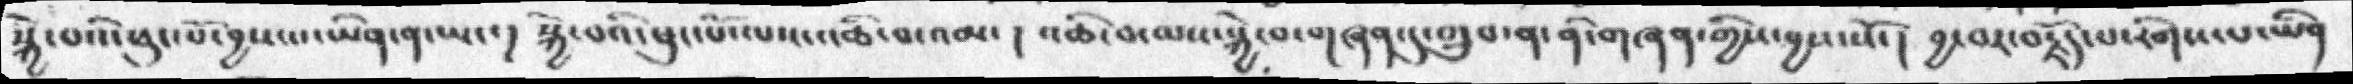སྐྱེ་བའི་ཕུང་པོ་བྱས་པ་ཡིན་ན་ཡང་། སྐྱེ་བའི་ཕུང་པོ་ལས་འཆི་བ་འམ་།  འཆི་བ་ལས་སྐྱེ་བ་གཞན་དུ་གྲུབ་ན་ནི་གཞན་གྱིས་བྱས་སོ་།  བྱ་བར་བརྗོད་པ་རིགས་པ་ཡིན
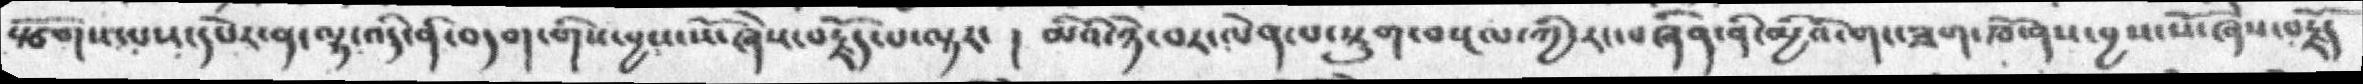སྩོགས་པས་དཔེཏ་ན་ལྷ་འདི་ནི་བདག་གིས་བྱས་སོ་ཞེས་བརྗོད་པ་ལྟར་།  མིའི་ཉེ་བར་ལེན་པ་སྡུག་བསྔལ་ཀྱི་རང་བཞིན་ནི་མྱིའི་གང་ཟག་ཁོ་ནས་བྱས་སོ་ཞེས་བརྗོད
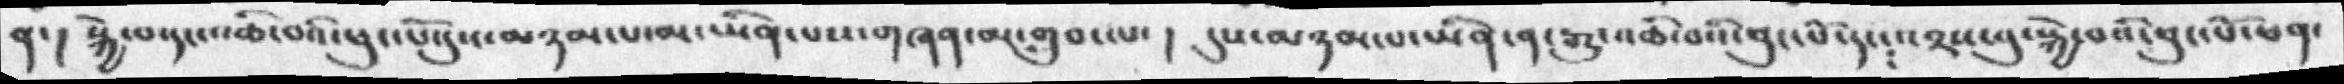ན་། སྐྱེ་བ་དང་འཆི་བའི་ཕུང་པོ་དུས་མཉམ་པ་མ་ཡིན་པས་གཞན་མ་གྲུབ་ལ་།  དུས་མཉམ་པ་ཡིན་ན་རྒྱུ་འཆི་བའི་ཕུང་པོ་དང༴འབྲས་བུ་སྐྱེ་བའི་ཕུང་པོ་ཕན་
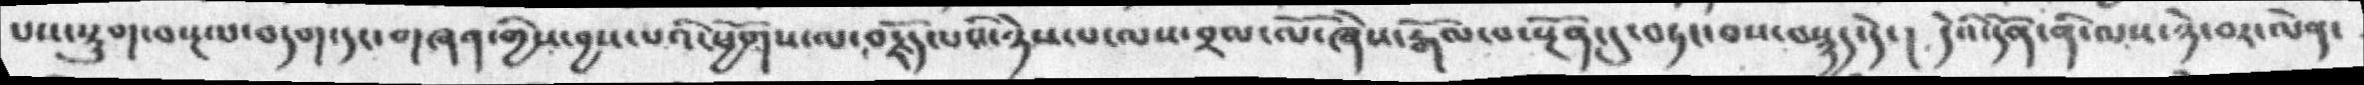པས་སྡུག་བསྔལ་བདག་དངགཞན་གྱིས་བྱས་པའི་ཕྱོགས་ལ་བརྗོད་པའི་ཉེས་པ་ལས་བྲལ་ལོ་ཞེས་རྒོལ་བ་སྔོན་དུ་བཏང་བས་བསྙད་དེ་།  དེའི་དོན་ནི་ལས་ཉེ་བར་ལེན་
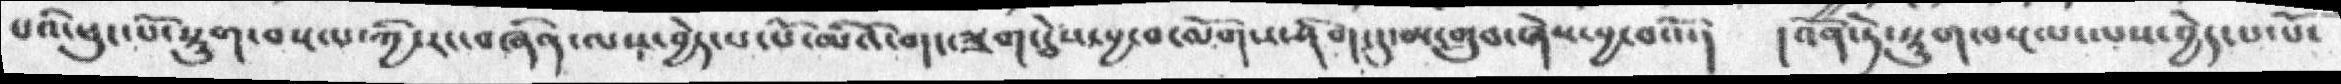པའི་ཕུང་པོ་སྡུག་བསྔལ་ཀྱི་རང་བཞིན་ལས་བྱེད་པ་པོ་མིའི་གང་ཟག་ཅེས་བྱ་བ་ལོགས་ཤིག་དུ་མ་གྲུབ་ཞེས་བྱ་བའོ་།  །འོན་ཏེ་སྡུག་བསྔལ་ལས་བྱེད་པ་པོ་
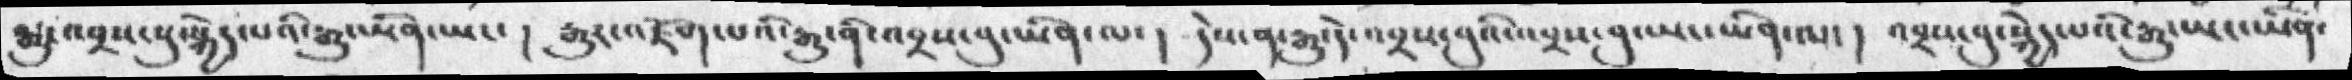རྒྱུ་འབྲས་སུ་སྐྱེད་པའི་རྒྱུ་ཡིན་ཡང་།  རྒྱུར་འཇོག་པའི་རྒྱུ་ནི་འབྲས་བུ་ཡིན་ལ་། དེས་ན་རྒྱུ་དེ་འབྲས་བུའི་འབྲས་བུ་ཡང་ཡིན་ལ་། འབྲས་བུ་སྐྱེད་པའི་རྒྱུ་ཡང་ཡིན་
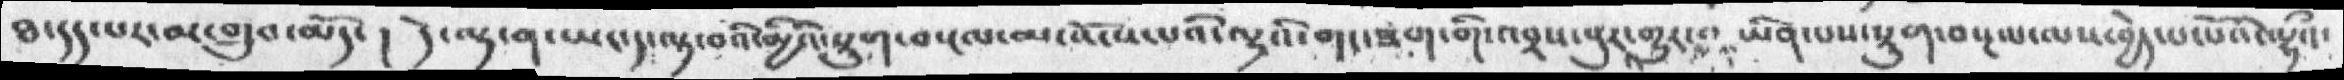ཐ་དད་པར་མ་གྲུབ་མོད་།   དེ་ལྟ་ན་ཡང་ད་ལྟ་བའི་མྱིའི་སྡུག་བསྔལ་མ་འོངས་པའི་ལྷའི་གང་ཟག་གི་འབྲས་བུར་གྱུར་བ  ཡིན་པས་སྡུག་བསྔལ་ལས་བྱེད་པ་པོའི་ལྷའི་
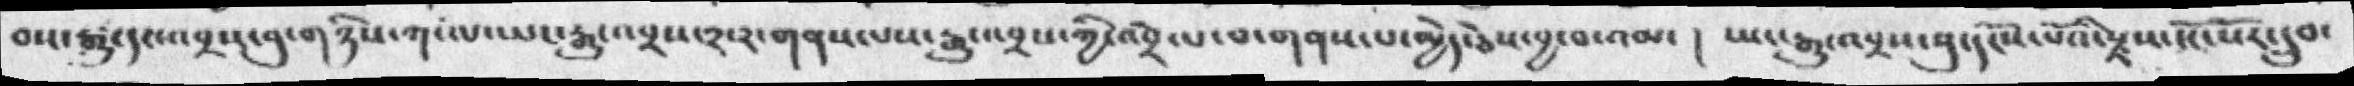བས་རྒྱུ་དང་འབྲས་བུ་གཉིས་ཀ་ལ་ཡང་རྒྱུ་འབྲས་༢་༢་གནས་པས་རྒྱུ་འབྲས་ཀྱི་འབྲེལ་བ་གནས་པ་མྱེད་ཅེས་བྱ་བ་འམ་། ཡང་རྒྱུ་འབྲས་སུ་དངོས་པོའི་རྫས་དང་པོར་དྲུབ་
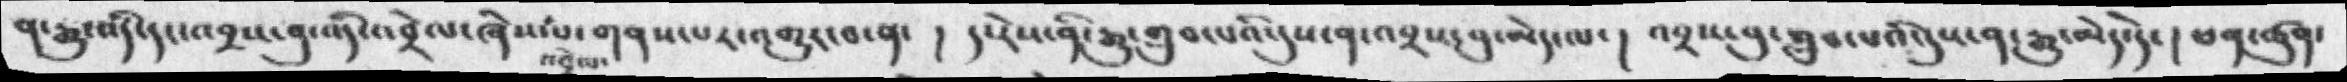༡་རྒྱུ་འདི་དང་འབྲས་བུ་འདི་འབྲེལ་ཞེས་པ་གནས་པར་འགྱུར་བ་ན་  །  ད་རེས་ནི་རྒྱུ་གྲུབ་པའི་དུས་ན་འབྲས་བུ་མེད་ལ་།  འབྲས་བུ་གྲུབ་པའི་དུས་ན་རྒྱུ་མེད་དོ་།   ཕན་ཚུན་
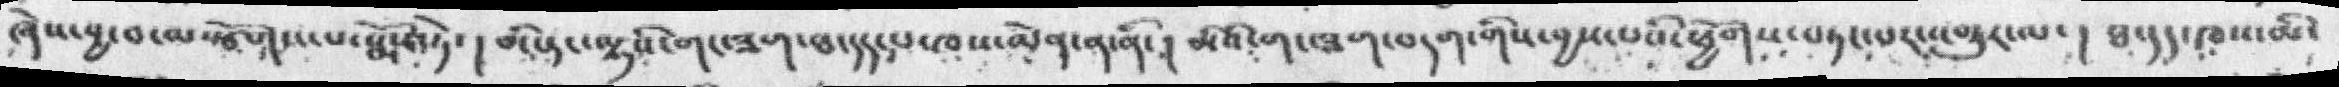ཞེས་བྱ་བ་ལསྩོགས་པ་སྨོས་ཏེ་། མི་དང་ལྷའི་གང་ཟག་ཐ་དད་པ་ཁས་ལེན་ནི་། མིའི་གང་ཟག་བདག་གིས་བྱས་པའི་ཕྱོགས་བཏང་པར་འགྱུར་ལ་། ཐ་དད་ཁས་མི་
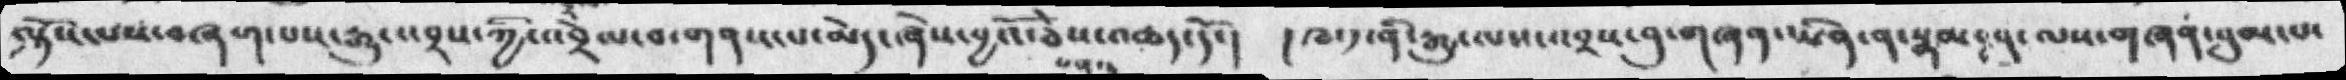ལྟོས་པས་བཞག་པས་རྒྱུ་འབྲས་ཀྱི་འབྲེལ་བ་གནས་པ་མེད་ཞེས་བྱའོ་ཅས་འཆད་དོ་།   །  ཁ་༡་ནི་རྒྱུ་ལས་འབྲས་བུ་གཞན་ཡིན་ན་སྣམ་བུ་ལས་གཞན་བུམ་པ་
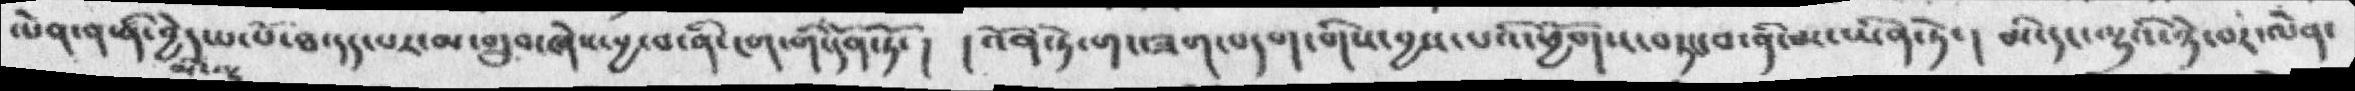ལེན་ན་ནི་བྱེད་པ་པོ་ཐ་དད་པར་མ་གྲུབ་ཞེས་བྱ་བ་ནི་ངག་གི་དོནཏོ་།  །  འོན་ཏེ་གང་ཟག་བདག་གིས་བྱས་པའི་ཕྱོགས་བཏང་པ་ནི་མ་ཡིན་ཏེ་།   མི་དང་ལྷའི་ཉེ་བར་ལེན་
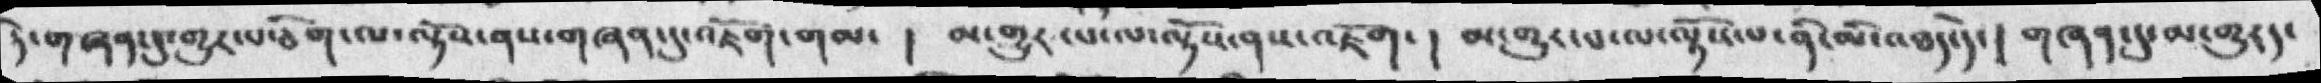དེ་གཞན་དུ་གྱུར་པ་ཅིག་ལ་ལྟོས་ནས་གཞན་དུ་འཇོག་གམ་། མ་གྱུར་པ་ལ་ལྟོས་ནས་འཇོག་། མ་གྱུར་པ་ལ་ལྟོས་པ་ནི་མི་འཐད་དེ་། གཞན་དུ་མ་གྱུརད་
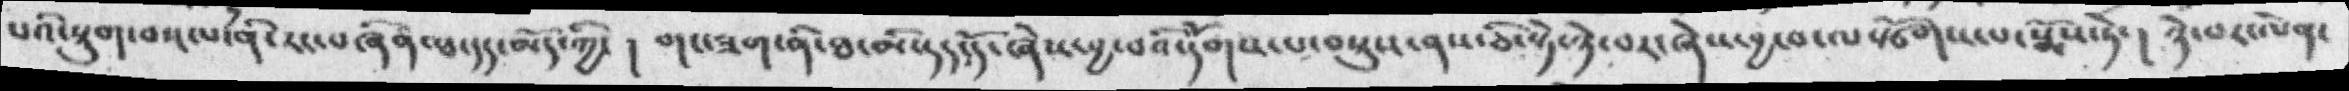པའི་སྡུག་བསྔལ་ནི་རང་བཞིན་ཐ་དད་མོད་ཀྱི་།  གང་ཟག་ནི་ཐ་མི་དད་དོ་ཞེས་བྱ་བའི་དོགས་པ་སྡུས་ནས་ཅི་སྟེ་ཉེ་བར་ཞེས་བྱ་བ་ལསྩོགས་པ་སྨོས་ཏེ་། ཉེ་བར་ལེན་
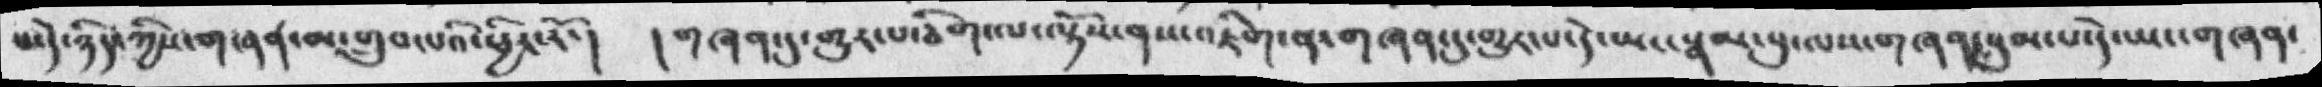པ་དེ་ཉིད་ཀྱིས་གཞན་མ་གྲུབ་པའི་ཕྱིར་རོ་།  །གཞན་དུ་གྱུར་པ་ཅིག་ལ་ལྟོས་ནས་འཇིག་ན་གཞན་དུ་གྱུར་པ་དེ་ཡང་སྣམ་བུ་ལས་གཞན་བུམ་པ་དེ་ཡང་གཞན་
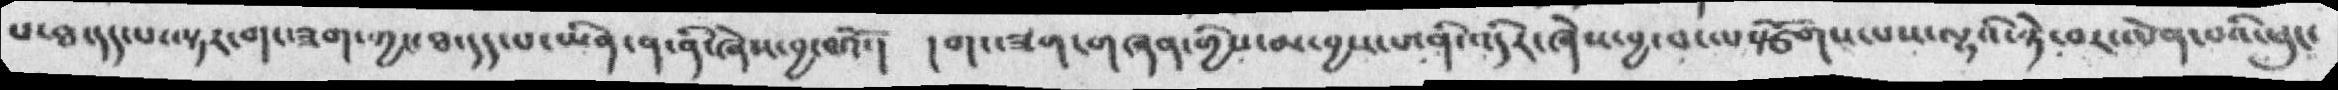པ་ཐ་དད་པ་ལྟར་གང་ཟག་ཀྱང་ཐ་དད་པ་ཡིན་ན་ནི་ཞེས་བྱ་བའོ་།  །གང་ཟག་གཞན་གྱིས་མ་བྱས་པ་ནི་འདིར་ཞེས་བྱ་བ་ལསྩོགས་པས་ལྷའི་ཉེ་བར་ལེན་པའི་ཕུང་
